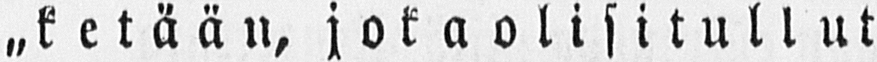˶ketään, j oka olisi tullut
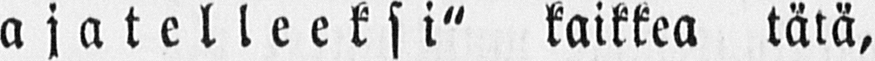ajatelleeksi" kaikkea tätä,
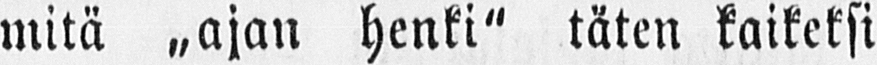mitä ˶ajan henki" täten kaikeksi
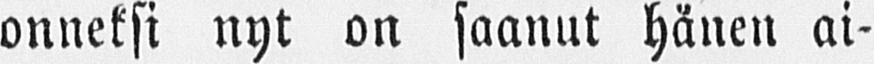onneksi nyt on saanut hänen ai-
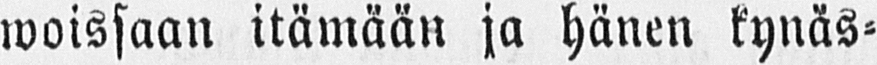woissaan itämään ja hänen kynäs-
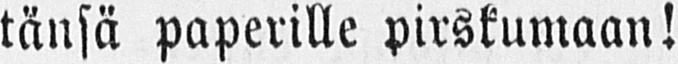tänsä paperille pirskumaan!
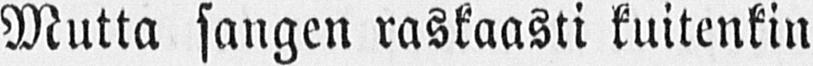Mutta sangen raskaasti kuitenkin
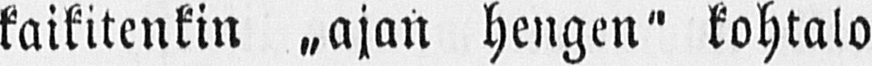kaikitenkin ˶ajan hengen" kohtalo
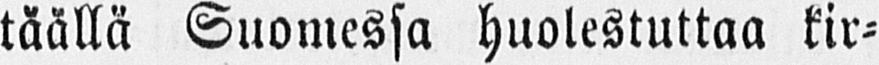täällä Suomessa huolestuttaa kir-
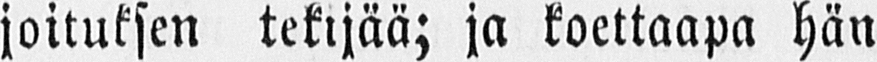joituksen tekijää; ja koettaapa hän
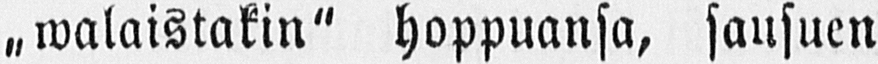˶walaistakin" hoppuansa, sausuen
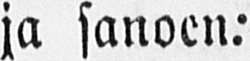ja sanoen:
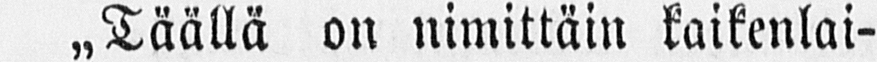˶Täällä on nimittäin kaikenlai-
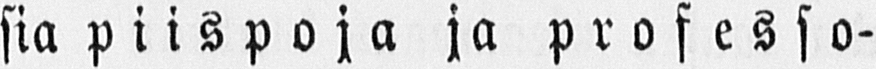sia piispoja ja professo-
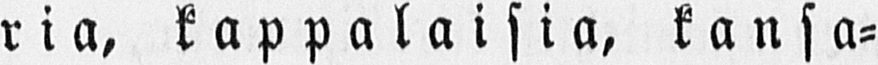ria, kappalaisia, kanso-
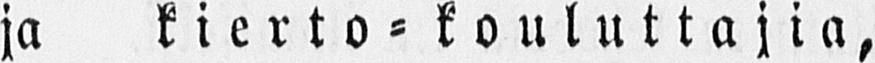ja kierto-kouluttajia,
